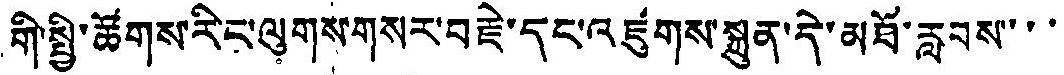གི་སྤྱི་ཚོགས་རིང་ལུགས་གསར་བརྗེ་དང་འཛུགས་སྐྲུན་དེ་མཐོ་རླབས་་་་
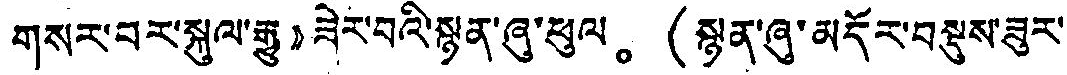གསར་བར་སྐུལ་རྒྱུ”ཟེར་བའི་སྙན་ཞུ་ཕུལ。（སྙན་ཞུ་མདོར་བསྡུས་ཟུར་
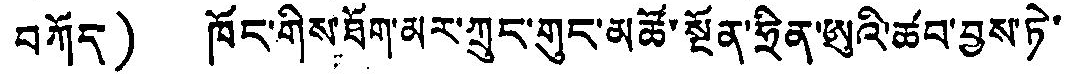བཀོད） ཁོང་གིས་ཐོག་མར་ཀྲུང་གུང་མཚོ་སྔོན་ཧྲིན་ཨུའི་ཚབ་བྱས་ཏེ་
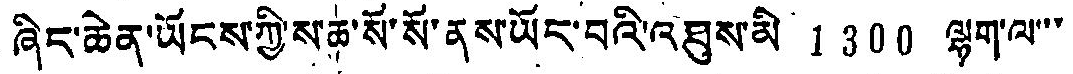ཞིང་ཆེན་ཡོངས་ཀྱི་ས་ཆ་སོ་སོ་ནས་ཡོད་བའི་འཐུས་མི 1300 ལྷག་ལ་་་
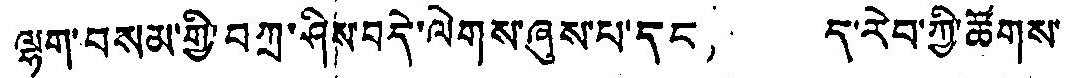ལྷག་བསམ་གྱི་བཀྲ་ཤིས་བདེ་ལེགས་ཞུས་པ་དང་། ད་རེབ་ཀྱི་ཚོགས་
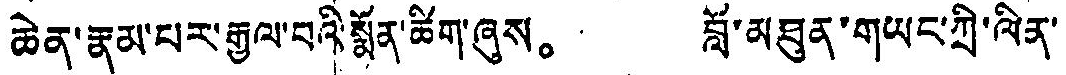ཆེན་རྣམ་པར་རྒྱལ་བའི་སྨོན་ཚིག་ཞུས。 བློ་མཐུན་གཡང་ཀྲི་ལིན་
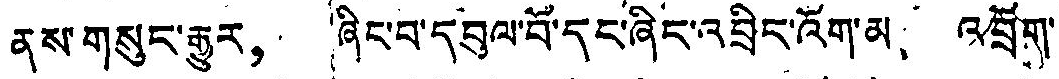ནས་གསུང་རྒྱུར， ཞིང་བ་དབུལ་བོ་དང་ཞིང་འབྲིང་འོག་མ、 འབྲོག་
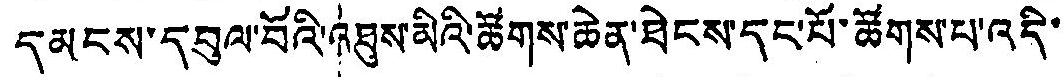དམངས་དབུལ་བོའི་འཐུས་མིའི་ཚོགས་ཆེན་ཐེངས་དང་པོ་ཚོགས་པ་འདི་
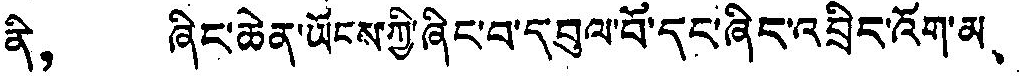ནི， ཞིང་ཆེན་ཡོངས་ཀྱི་ཞིང་བ་དབུལ་བོ་དང་ཞིང་འབྲིང་འོག་མ、
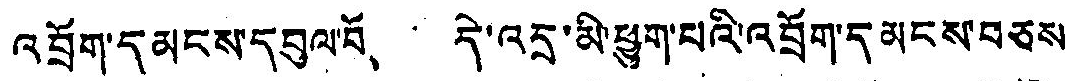འབྲོག་དམངས་དབུལ་བོ、 དེ་འདྲ་མི་ཕྱུག་པའི་འབྲོག་དམངས་བཅས་
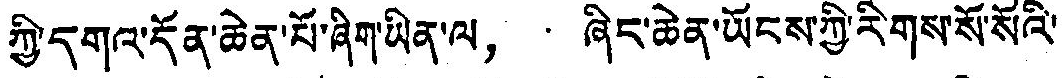ཀྱི་དགའ་དོན་ཆེན་པོ་ཞིག་ཡིན་ལ， ཞིང་ཆེན་ཡོངས་ཀྱི་རིགས་སོ་སོའི་
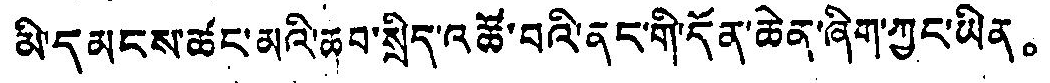མི་དམངས་ཚང་མའི་ཆབ་སྲིད་འཚོ་བའི་ནང་གི་དོན་ཆེན་ཞིག་ཀྱང་ཡིན。
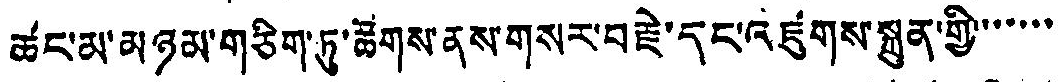ཚང་མ་མཉམ་གཅིག་ཏུ་ཚོགས་ནས་གསར་བརྗེ་དང་འཛུགས་སྐྲུན་གྱི་་་་་་་
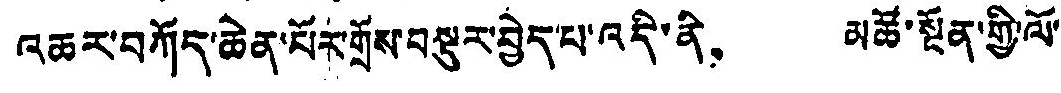འཆར་བཀོད་ཆེན་པོར་གྲོས་བསྡུར་བྱེད་པ་འདི་ནི， མཚོ་སྔོན་གྱི་ལོ་
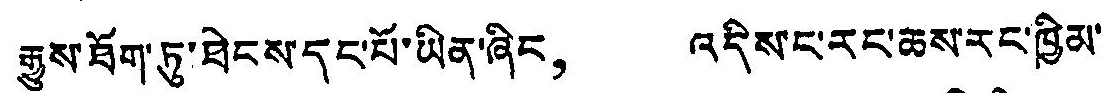རྒྱུས་ཐོག་ཏུ་ཐེངས་དང་པོ་ཡིན་ཞིང， འདིས་ང་རང་ཆས་རང་ཁྱིམ་
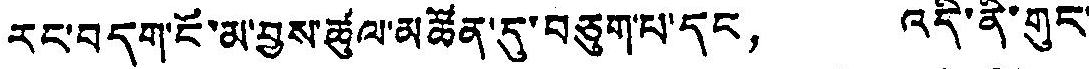རང་བདག་ངོ་མ་བྱས་ཚུལ་མཚོན་དུ་བཅུག་པ་དང， འདི་ནི་གུང་
